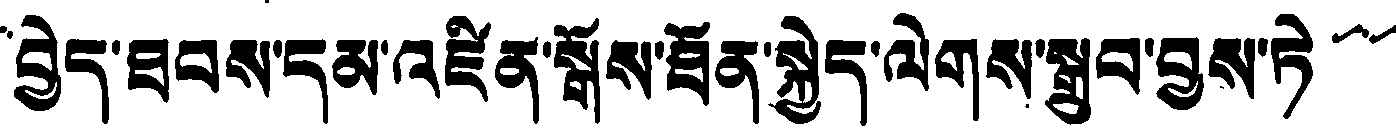བྱེད་ཐབས་དམ་འཛིན་སྒོས་ཐོན་སྐྱེད་ལེགས་སྒྲུབ་བྱས་ཏེ
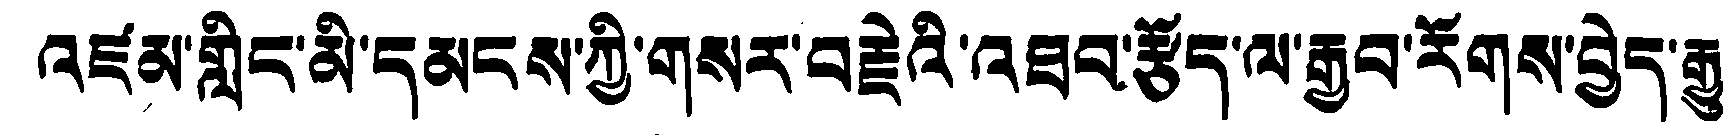འཛམ་གླིང་མི་དམངས་ཀྱི་གསར་བརྗེའི་འཐབ་རྩོད་ལ་རྒྱབ་རོགས་བྱེད་རྒྱུ
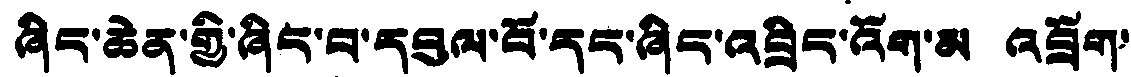ཞིང་ཆེན་གྱི་ཞིང་བ་དབུལ་བོ་དང་ཞིང་འབྲིང་འོག་མ འབྲོག་
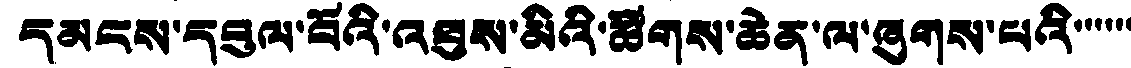དམངས་དབུལ་བོའི་འཐུས་མིའི་ཚོགས་ཆེན་ལ་ཞུགས་པའི་་་་་་
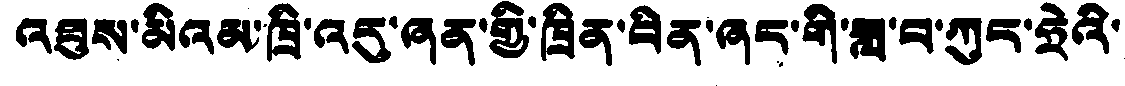འཐུས་མིའམ་ཁྲི་འདུ་ཞན་གྱི་ཁྲིན་བིན་ཞང་གི་ཟླ་བ་ཀུང་ཧྲེའི་
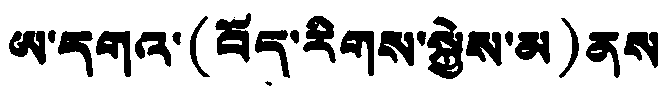ཨ་དགའ་(བོད་རིགས་སྐྱེས་མ) ནས་
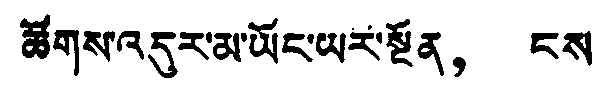ཚོགས་འདུར་མ་ཡོང་ཡར་སྔོན， ངས་
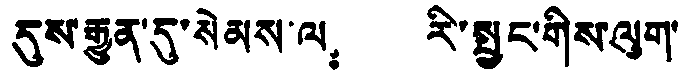དུས་རྒྱུན་དུ་སེམས་ལ： རི་སྤྱང་གིས་ལུག་
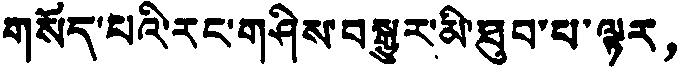གསོད་པའི་རང་གཤིས་བསྒྱུར་མི་ཐུབ་པ་ལྟར，
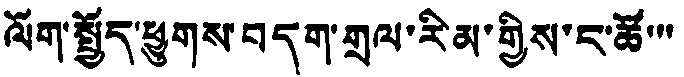ལོག་སྤྱོད་ཕྱུགས་བདག་གྲལ་རིམ་གྱིས་ང་ཚོ་་་
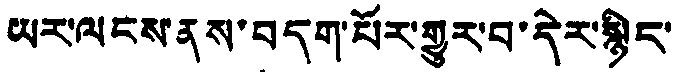ཡར་ལངས་ནས་བདག་པོར་གྱུར་བ་དེར་སྙིང་
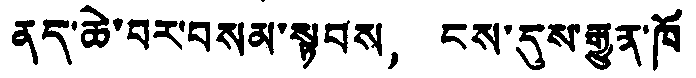ནད་ཆེ་བར་བསམ་སྟབས， ངས་དུས་རྒྱུན་ཁོ
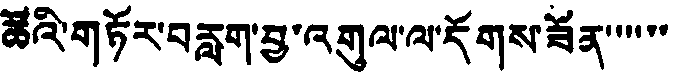ཚོའི་གཏོར་བརླག་བྱ་འགུལ་ལ་དོགས་ཟོན་་་་་་
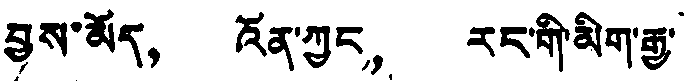བྱས་མོད， འོན་ཀྱང， རང་གི་མིག་རྒྱ་
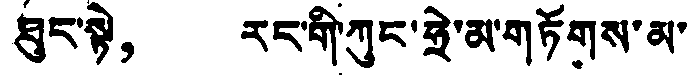ཐུང་སྟེ， རང་གི་ཀུང་ཧྲེ་མ་གཏོགས་མ་
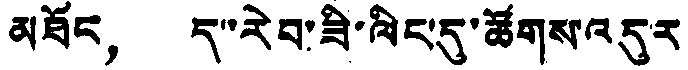མཐོང， ད་རེབ་ཟི་ལིང་དུ་ཚོགས་འདུར
